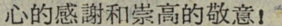心的感謝和崇高的敬意！
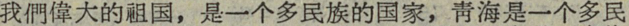我們偉大的祖国，是一个多民族的国家，靑海是一个多民
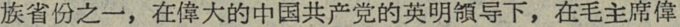族省份之一，在偉大的中国共产党的英明領导下，在毛主席偉
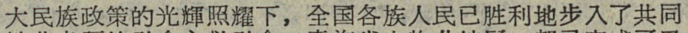大民族政策的光輝照耀下，全国各族人民已胜利地步入了共同
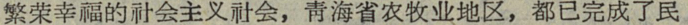繁荣幸福的社会主义社会，靑海省农牧业地区，都已完成了民
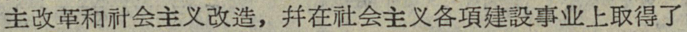主改革和社会主义改造，并在社会主义各項建設事业上取得了
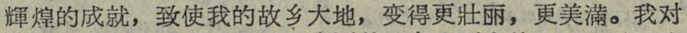輝煌的成就，致使我的故乡大地，变得更壯丽，更美滿。我对
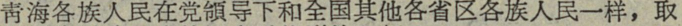靑海各族人民在党領导下和全国其他各省区各族人民一样，取
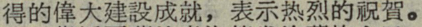得的偉大建設成就，表示热烈的祝賀。
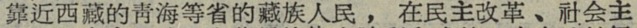靠近西藏的靑海等省的藏族人民，在民主改革、社会主
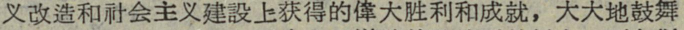义改造和社会主义建設上获得的偉大胜利和成就，大大地鼓舞
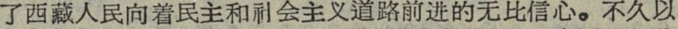了西藏人民向着民主和社会主义道路前进的无比信心。不久以
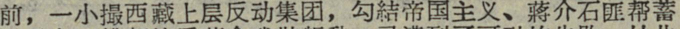前，一小撮西藏上层反动集团，勾結帝国主义、蔣介石匪帮蓄
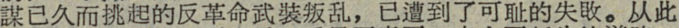謀已久而挑起的反革命武装叛乱，已遭到了可耻的失敗。从此
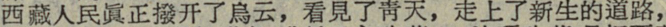西藏人民眞正撥开了烏云，看見了靑天，走上了新生的道路，
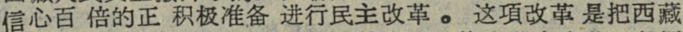信心百倍的正积极准备进行民主改革。这項改革是把西藏
